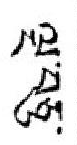ལྔ་བཅུ་
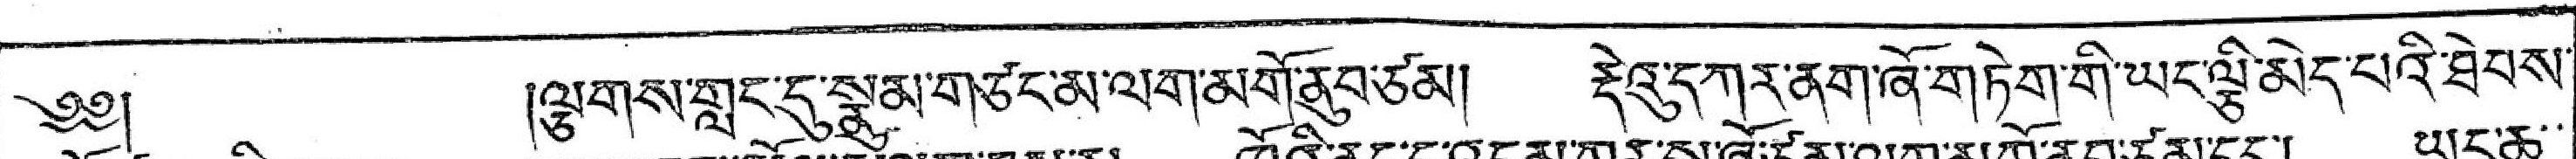༄༅།  །ལྕགས་གླང་དུ་སྣུམ་གཙང་མ་ལག་མགོ་ནུབ་ཙམ། རྡེའུ་དཀར་ནག་ཞོ་གཏེག་གི་ཡང་ལྕི་མེད་པའི་ཐེབས་
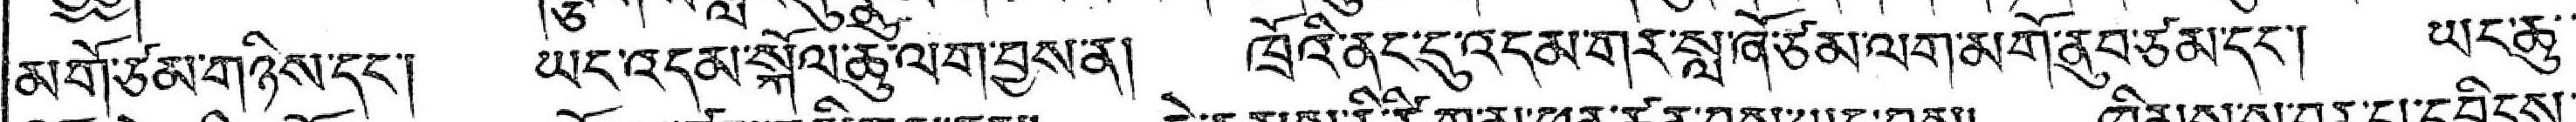མགོ་ཙམ་གཉིས་དང་། ཡང་འདམ་སྐོལ་ཆུ་ལག་བྱས་ན། ཁྲོའི་ནང་དུ་འདམ་གར་སླ་ཞོ་ཙམ་ལག་མགོ་ནུབ་ཙམ་དང་། ཡང་ཆུ་་
